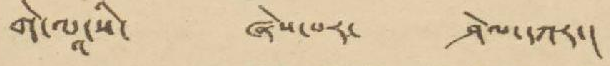གེ་ལཱ་སི་ ཞེས་པར་ ཤེལ་དཀར་།
